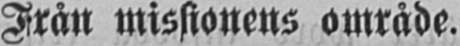Från missionens område.
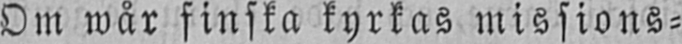Om wår finska kyrkas missions-
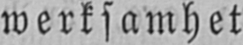werksamhet
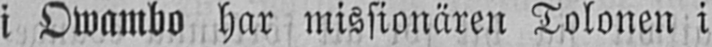i Owambo har missionären Tolonen i
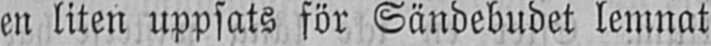en liten uppsats för Sändebudet lemnat
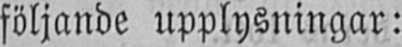följande upplysningar:
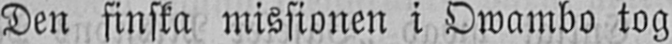Den finska missionen i Owambo tog
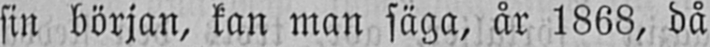sin början, kan man säga, år 1868, då
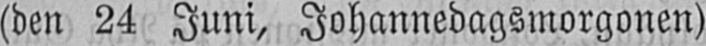(den 24 Juni, Johannedagsmorgonen)
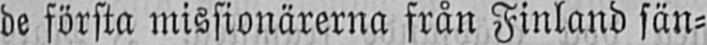de första missionärerna från Finland sän-
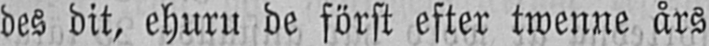des dit, ehuru de först efter twenne års
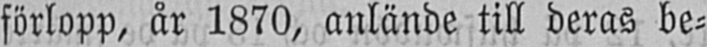förlopp, år 1870, anlände till deras be-
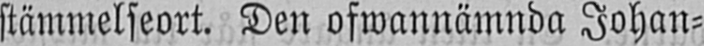stämmelseort. Den ofwannämnda Johan-
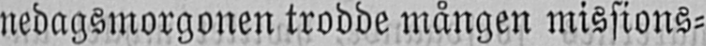nedagsmorgonen trodde mången missions-
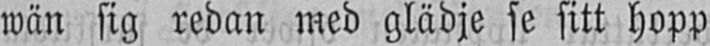wän sig redan med glädje se sitt hopp
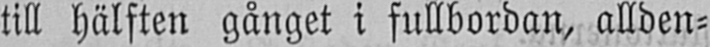till hälften gånget i fullbordan, allden-
